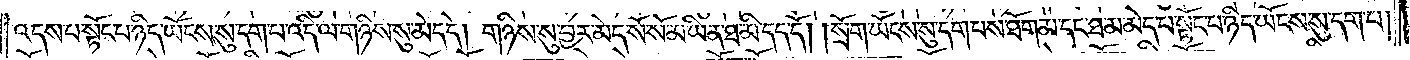འདས་པ་སྟོང་པ་ཉིད་ཡོངས་སུ་དག་པ་འདི་ལ་གཉིས་སུ་མེད་དེ། གཉིས་སུ་བྱར་མེད་སོ་སོ་མ་ཡིན་ཐ་མ་དད་དོ། །སྲོག་ཡོངས་སུ་དག་པས་ཐོག་མ་དང་ཐ་མ་མེད་པ་སྟོང་པ་ཉིད་ཡོངས་སུ་དག་པ།
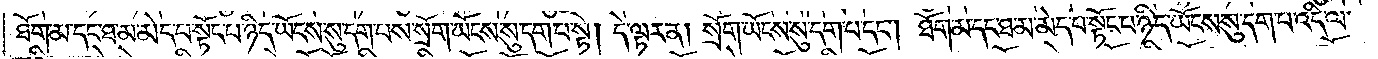ཐོག་མ་དང་ཐ་མ་མེད་པ་སྟོང་པ་ཉིད་ཡོངས་སུ་དག་པས་སྲོག་ཡོངས་སུ་དག་པ་སྟེ། དེ་ལྟར་ན། སྲོག་ཡོངས་སུ་དག་པ་དང༌། ཐོག་མ་དང་ཐ་མ་མེད་པ་སྟོང་པ་ཉིད་ཡོངས་སུ་དག་པ་འདི་ལ་
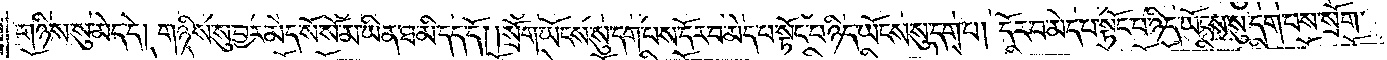གཉིས་སུ་མེད་དེ། གཉིས་སུ་བྱར་མེད་སོ་སོ་མ་ཡིན་ཐ་མི་དད་དོ། །སྲོག་ཡོངས་སུ་དག་པས་དོར་བ་མེད་པ་སྟོང་པ་ཉིད་ཡོངས་སུ་དག་པ། དོར་བ་མེད་པ་སྟོང་པ་ཉིད་ཡོངས་སུ་དག་པས་སྲོག་
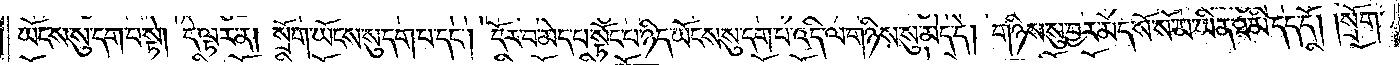ཡོངས་སུ་དག་པ་སྟེ། དེ་ལྟར་ན། སྲོག་ཡོངས་སུ་དག་པ་དང༌། དོར་བ་མེད་པ་སྟོང་པ་ཉིད་ཡོངས་སུ་དག་པ་འདི་ལ་གཉིས་སུ་མེད་དེ། གཉིས་སུ་བྱར་མེད་སོ་སོ་མ་ཡིན་ཐ་མི་དད་དོ། །སྲོག་
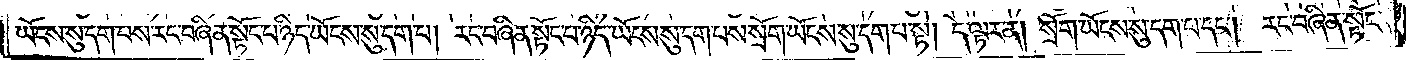ཡོངས་སུ་དག་པས་རང་བཞིན་སྟོང་པ་ཉིད་ཡོངས་སུ་དག་པ། རང་བཞིན་སྟོང་པ་ཉིད་ཡོངས་སུ་དག་པས་སྲོག་ཡོངས་སུ་དག་པ་སྟེ། དེ་ལྟར་ན། སྲོག་ཡོངས་སུ་དག་པ་དང༌། རང་བཞིན་སྟོང་
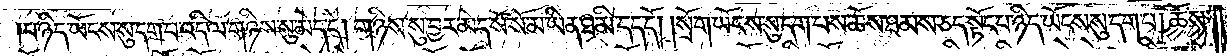པ་ཉིད་ཡོངས་སུ་དག་པ་འདི་ལ་གཉིས་སུ་མེད་དེ། གཉིས་སུ་བྱར་མེད་སོ་སོ་མ་ཡིན་ཐ་མི་དད་དོ། །སྲོག་ཡོངས་སུ་དག་པས་ཆོས་ཐམས་ཅད་སྟོང་པ་ཉིད་ཡོངས་སུ་དག་པ། ཆོས་
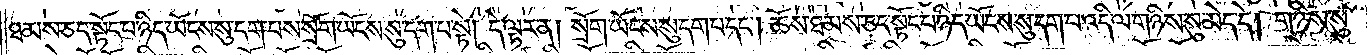ཐམས་ཅད་སྟོང་པ་ཉིད་ཡོངས་སུ་དག་པས་སྲོག་ཡོངས་སུ་དག་པ་སྟེ། དེ་ལྟར་ན། སྲོག་ཡོངས་སུ་དག་པ་དང༌། ཆོས་ཐམས་ཅད་སྟོང་པ་ཉིད་ཡོངས་སུ་དག་པ་འདི་ལ་གཉིས་སུ་མེད་དེ། གཉིས་སུ་
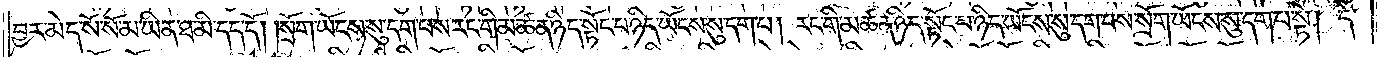བྱར་མེད་སོ་སོ་མ་ཡིན་ཐ་མི་དད་དོ། །སྲོག་ཡོངས་སུ་དག་པས་རང་གི་མཚན་ཉིད་སྟོང་པ་ཉིད་ཡོངས་སུ་དག་པ། རང་གི་མཚན་ཉིད་སྟོང་པ་ཉིད་ཡོངས་སུ་དག་པས་སྲོག་ཡོངས་སུ་དག་པ་སྟེ། དེ་
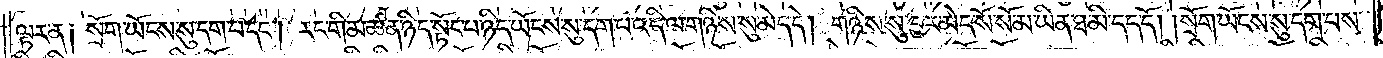ལྟར་ན༑ སྲོག་ཡོངས་སུ་དག་པ་དང༌། རང་གི་མཚན་ཉིད་སྟོང་པ་ཉིད་ཡོངས་སུ་དག་པ་འདི་ལ་གཉིས་སུ་མེད་དེ། གཉིས་སུ་བྱར་མེད་སོ་སོ་མ་ཡིན་ཐ་མི་དད་དོ། །སྲོག་ཡོངས་སུ་དག་པས་
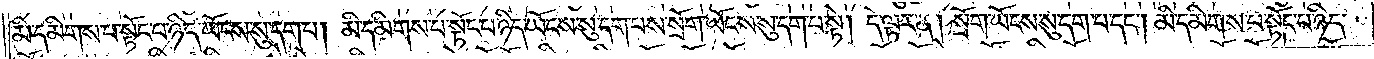མི་དམིགས་པ་སྟོང་པ་ཉིད་ཡོངས་སུ་དག་པ། མི་དམིགས་པ་སྟོང་པ་ཉིད་ཡོངས་སུ་དག་པས་སྲོག་ཡོངས་སུ་དག་པ་སྟེ། དེ་ལྟར་ན། སྲོག་ཡོངས་སུ་དག་པ་དང༌། མི་དམིགས་པ་སྟོང་པ་ཉིད་
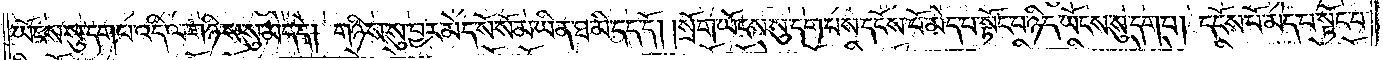ཡོངས་སུ་དག་པ་འདི་ལ་གཉིས་སུ་མེད་དེ། གཉིས་སུ་བྱར་མེད་སོ་སོ་མ་ཡིན་ཐ་མི་དད་དོ། །སྲོག་ཡོངས་སུ་དག་པས་དངོས་པོ་མེད་པ་སྟོང་པ་ཉིད་ཡོངས་སུ་དག་པ། དངོས་པོ་མེད་པ་སྟོང་པ་
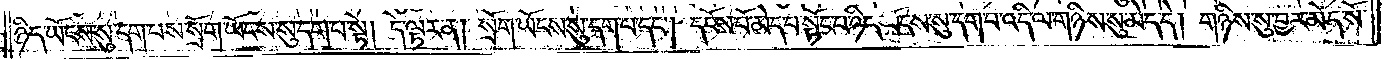ཉིད་ཡོངས་སུ་དག་པས་སྲོག་ཡོངས་སུ་དག་པ་སྟེ། དེ་ལྟར་ན། སྲོག་ཡོངས་སུ་དག་པ་དང༌། དངོས་པོ་མེད་པ་སྟོང་པ་ཉིད་ཡོངས་སུ་དག་པ་འདི་ལ་གཉིས་སུ་མེད་དེ། གཉིས་སུ་བྱར་མེད་སོ་
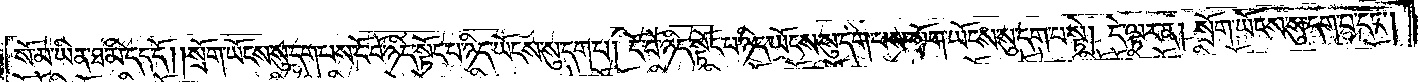སོ་མ་ཡིན་ཐ་མི་དད་དོ། །སྲོག་ཡོངས་སུ་དག་པས་ངོ་བོ་ཉིད་སྟོང་པ་ཉིད་ཡོངས་སུ་དག་པ། ངོ་བོ་ཉིད་སྟོང་པ་ཉིད་ཡོངས་སུ་དག་པས་སྲོག་ཡོངས་སུ་དག་པ་སྟེ། དེ་ལྟར་ན། སྲོག་ཡོངས་སུ་དག་པ་དང༌།
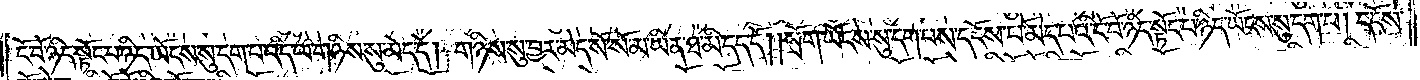ངོ་བོ་ཉིད་སྟོང་པ་ཉིད་ཡོངས་སུ་དག་པ་འདི་ལ་གཉིས་སུ་མེད་དེ། གཉིས་སུ་བྱར་མེད་སོ་སོ་མ་ཡིན་ཐ་མི་དད་དོ། །སྲོག་ཡོངས་སུ་དག་པས་དངོས་པོ་མེད་པའི་ངོ་བོ་ཉིད་སྟོང་པ་ཉིད་ཡོངས་སུ་དག་པ། དངོས་
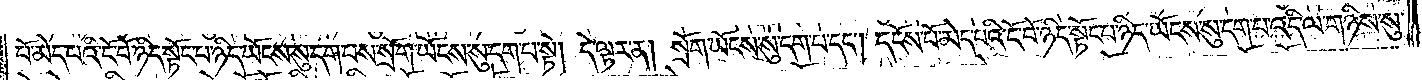པོ་མེད་པའི་ངོ་བོ་ཉིད་སྟོང་པ་ཉིད་ཡོངས་སུ་དག་པས་སྲོག་ཡོངས་སུ་དག་པ་སྟེ། དེ་ལྟར་ན། སྲོག་ཡོངས་སུ་དག་པ་དང༌། དངོས་པོ་མེད་པའི་ངོ་བོ་ཉིད་སྟོང་པ་ཉིད་ཡོངས་སུ་དག་པ་འདི་ལ་གཉིས་སུ་
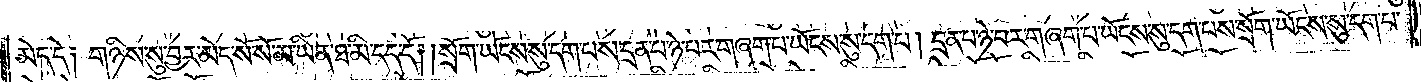མེད་དེ༑ གཉིས་སུ་བྱར་མེད་སོ་སོ་མ་ཡིན་ཐ་མི་དད་དོ། །སྲོག་ཡོངས་སུ་དག་པས་དྲན་པ་ཉེ་བར་བཞག་པ་ཡོངས་སུ་དག་པ། དྲན་པ་ཉེ་བར་བཞག་པ་ཡོངས་སུ་དག་པས་སྲོག་ཡོངས་སུ་དག་པ་
